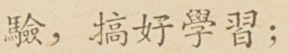驗，搞好學習；
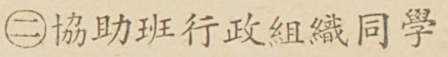㊁協助班行政組織同學
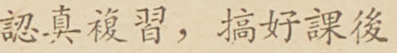認真複習，搞好課後
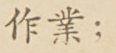作業；
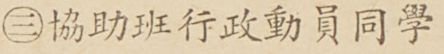㊂協助班行政動員同學
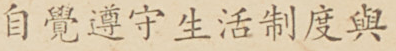自覺遵守生活制度與
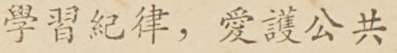學習紀律，愛護公共
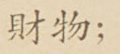財物；
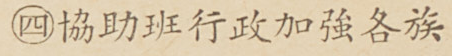㊃協助班行政加強各族
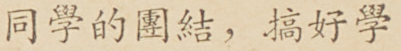同學的團結，搞好學
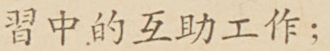習中的互助工作；
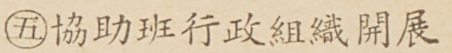㊄協助班行政組織開展
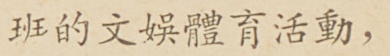班的文娛體育活動，
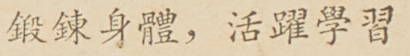鍛鍊身體，活躍學習
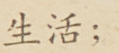生活；
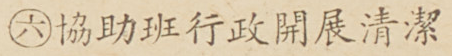㊅協助班行政開展清潔
